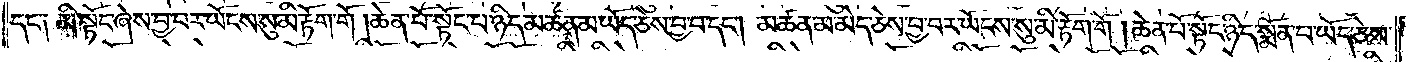དང༌། མི་སྟོང་ཞེས་བྱ་བས་ཡོངས་སུ་མི་རྟོག་གོ །ཆེན་པོ་སྟོང་པ་ཉིད་མཚན་མ་ཡོད་ཅེས་བྱ་བ་དང༌། མཚན་མ་མེད་ཅེས་བྱ་བར་ཡོངས་སུ་མི་རྟོག་གོ །ཆེན་པོ་སྟོང་པ་ཉིད་སྨོན་པ་ཡོད་ཅེས་
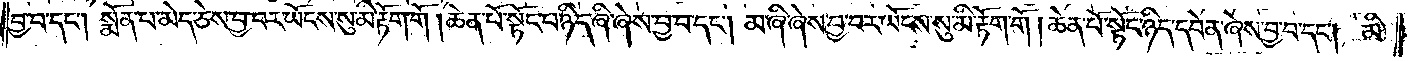བྱ་བ་དང༌། སྨོན་པ་མེད་ཅེས་བྱ་བར་ཡོངས་སུ་མི་རྟོག་གོ །ཆེན་པོ་སྟོང་པ་ཉིད་ཞི་ཞེས་བྱ་བ་དང༌། མ་ཞི་ཞེས་བྱ་བར་ཡོངས་སུ་མི་རྟོག་གོ །ཆེན་པོ་སྟོང་པ་ཉིད་དབེན་ཞེས་བྱ་བ་དང༌། མི་
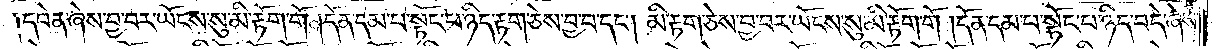དབེན་ཞེས་བྱ་བར་ཡོངས་སུ་མི་རྟོག་གོ །དོན་དམ་པ་སྟོང་པ་ཉིད་རྟག་ཅེས་བྱ་བ་དང༌། མི་རྟག་ཅེས་བྱ་བར་ཡོངས་སུ་མི་རྟོག་གོ །དོན་དམ་པ་སྟོང་པ་ཉིད་བདེ་ཞེས་
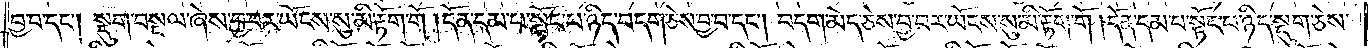བྱ་བ་དང༌། སྡུག་བསྔལ་ཞེས་བྱ་བར་ཡོངས་སུ་མི་རྟོག་གོ །དོན་དམ་པ་སྟོང་པ་ཉིད་བདག་ཅེས་བྱ་བ་དང༌། བདག་མེད་ཅེས་བྱ་བར་ཡོངས་སུ་མི་རྟོག་གོ །དོན་དམ་པ་སྟོང་པ་ཉིད་སྡུག་ཅེས་
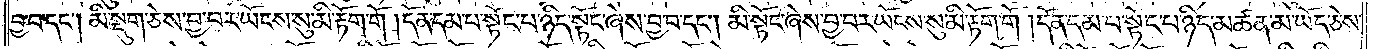བྱ་བ་དང༌། མི་སྡུག་ཅེས་བྱ་བར་ཡོངས་སུ་མི་རྟོག་གོ །དོན་དམ་པ་སྟོང་པ་ཉིད་སྟོང་ཞེས་བྱ་བ་དང༌། མི་སྟོང་ཞེས་བྱ་བར་ཡོངས་སུ་མི་རྟོག་གོ །དོན་དམ་པ་སྟོང་པ་ཉིད་མཚན་མ་ཡོད་ཅེས་
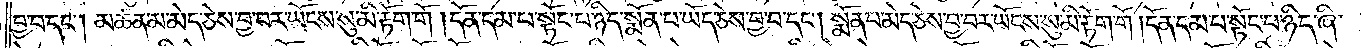བྱ་བ་དང༌། མཚན་མ་མེད་ཅེས་བྱ་བར་ཡོངས་སུ་མི་རྟོག་གོ །དོན་དམ་པ་སྟོང་པ་ཉིད་སྨོན་པ་ཡོད་ཅེས་བྱ་བ་དང༌། སྨོན་པ་མེད་ཅེས་བྱ་བར་ཡོངས་སུ་མི་རྟོག་གོ །དོན་དམ་པ་སྟོང་པ་ཉིད་ཞི་
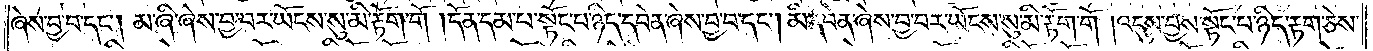ཞེས་བྱ་བ་དང༌། མ་ཞི་ཞེས་བྱ་བར་ཡོངས་སུ་མི་རྟོག་གོ །དོན་དམ་པ་སྟོང་པ་ཉིད་དབེན་ཞེས་བྱ་བ་དང༌། མི་དབེན་ཞེས་བྱ་བར་ཡོངས་སུ་མི་རྟོག་གོ །འདུས་བས་སྟོང་པ་ཉིད་རྟག་ཅེས་
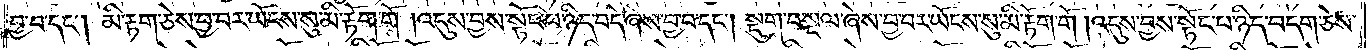བྱ་བ་དང༌། མི་རྟག་ཅེས་བྱ་བར་ཡོངས་སུ་མི་རྟོག་གོ །འདུས་བྱས་སྟོང་པ་ཉིད་བདེ་ཞེས་བྱ་བ་དང༌། སྡུག་བསྔལ་ཞེས་བྱ་བར་ཡོངས་སུ་མི་རྟོག་གོ །འདུས་བྱས་སྟོང་པ་ཉིད་བདག་ཅེས་
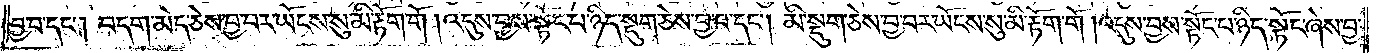བྱ་བ་དང༌། བདག་མེད་ཅེས་བྱ་བར་ཡོངས་སུ་མི་རྟོག་གོ །འདུས་བྱས་སྟོང་པ་ཉིད་སྡུག་ཅེས་བྱ་བ་དང༌། མི་སྡུག་ཅེས་བྱ་བར་ཡོངས་སུ་མི་རྟོག་གོ །འདུས་བྱས་སྟོང་པ་ཉིད་སྟོང་ཞེས་བྱ་
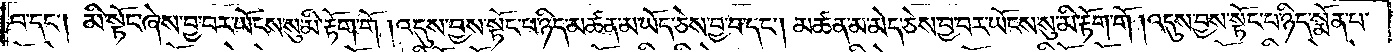བ་དང༌། མི་སྟོང་ཞེས་བྱ་བར་ཡོངས་སུ་མི་རྟོག་གོ །འདུས་བྱས་སྟོང་པ་ཉིད་མཚན་མ་ཡོད་ཅེས་བྱ་བ་དང༌། མཚན་མ་མེད་ཅེས་བྱ་བར་ཡོངས་སུ་མི་རྟག་གོ །འདུས་བྱས་སྟོང་པ་ཉིད་སྨོན་པ་
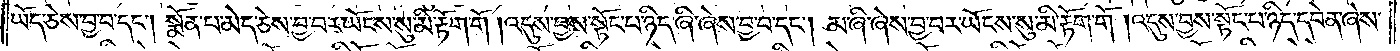ཡོད་ཅེས་བྱ་བ་དང༌། སྨོན་པ་མེད་ཅེས་བྱ་བར་ཡོངས་སུ་མི་རྟོག་གོ །འདུས་བྱས་སྟོང་པ་ཉིད་ཞི་ཞེས་བྱ་བ་དང༌། མ་ཞི་ཞེས་བྱ་བར་ཡོངས་སུ་མི་རྟོག་གོ །འདུས་བྱས་སྟོང་པ་ཉིད་དབེན་ཞེས་
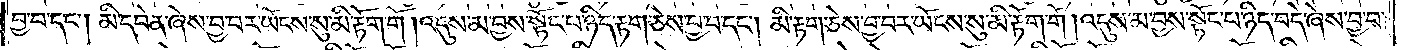བྱ་བ་དང༌། མི་དབེན་ཞེས་བྱ་བར་ཡོངས་སུ་མི་རྟོག་གོ །འདུས་མ་བྱས་སྟོང་པ་ཉིད་རྟག་ཅེས་བྱ་བ་དང༌། མི་རྟག་ཅེས་བྱ་བར་ཡོངས་སུ་མི་རྟོག་གོ །འདུས་མ་བྱས་སྟོང་པ་ཉིད་བདེ་ཞེས་བྱ་བ་
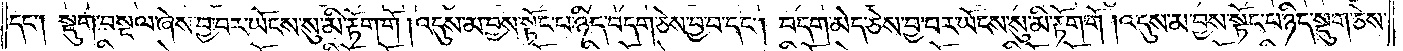དང༌། སྡུག་བསྔལ་ཞེས་བྱ་བར་ཡོངས་སུ་མི་རྟོག་གོ །འདུས་མ་བྱས་སྟོང་པ་ཉིད་བདག་ཅེས་བྱ་བ་དང༌། བདག་མེད་ཅེས་བྱ་བར་ཡོངས་སུ་མི་རྟོག་གོ །འདུས་མ་བྱས་སྟོང་པ་ཉིད་སྡུག་ཅེས་
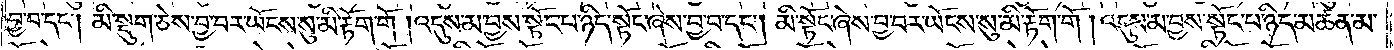བྱ་བ་དང༌། མི་སྡུག་ཅེས་བྱ་བར་ཡོངས་སུ་མི་རྟོག་གོ །འདུས་མ་བྱས་སྟོང་པ་ཉིད་སྟོང་ཞེས་བྱ་བ་དང༌། མི་སྟོང་ཞེས་བྱ་བར་ཡོངས་སུ་མི་རྟག་གོ །འདུས་མ་བྱས་སྟོང་པ་ཉིད་མཚན་མ་
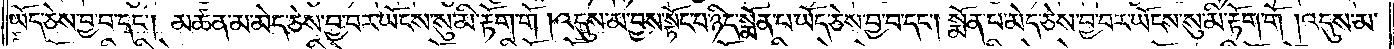ཡོད་ཅེས་བྱ་བ་དང༌། མཚན་མ་མེད་ཅེས་བྱ་བར་ཡོངས་སུ་མི་རྟོག་གོ །འདུས་མ་བྱས་སྟོང་པ་ཉིད་སྨོན་པ་ཡོད་ཅེས་བྱ་བ་དང༌། སྨོན་པ་མེད་ཅེས་བྱ་བར་ཡོངས་སུ་མི་རྟོག་གོ །འདུས་མ་
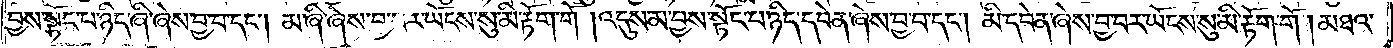བྱས་སྟོང་པ་ཉིད་ཞི་ཞེས་བྱ་བ་དང༌། མ་ཞི་ཞེས་བྱ་བར་ཡོངས་སུ་སུ་མི་རྟོག་གོ །འདུས་མ་བྱས་སྟོང་པ་ཉིད་དབེན་ཞེས་བྱ་བ་དང༌། མི་དབེན་ཞེས་བྱ་བར་ཡོངས་སུ་མི་རྟོག་གོ །མཐའ་
